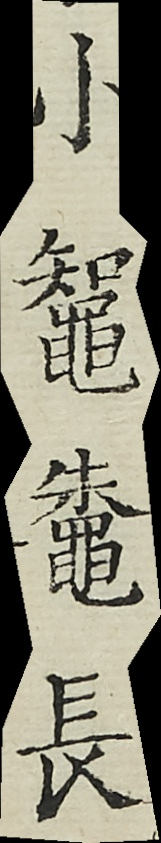小蜘蛛長
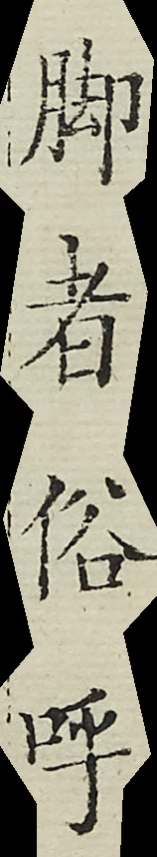腳者俗呼
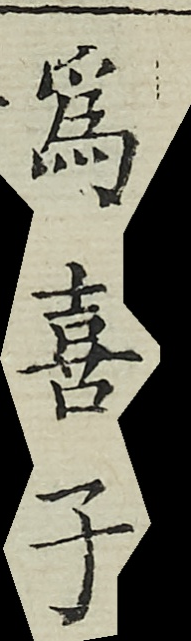為喜子
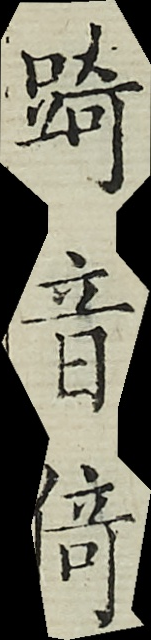踦音倚
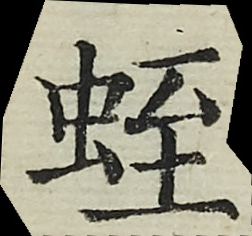蛭
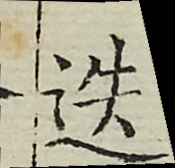迭
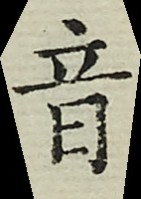音
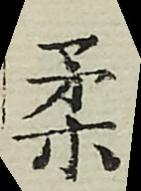柔
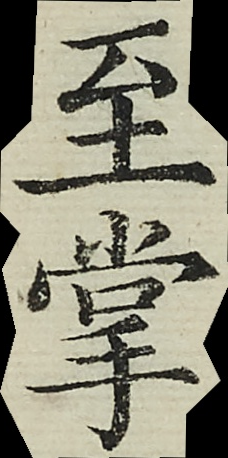至掌
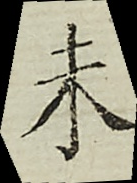未
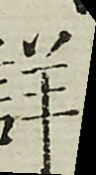詳
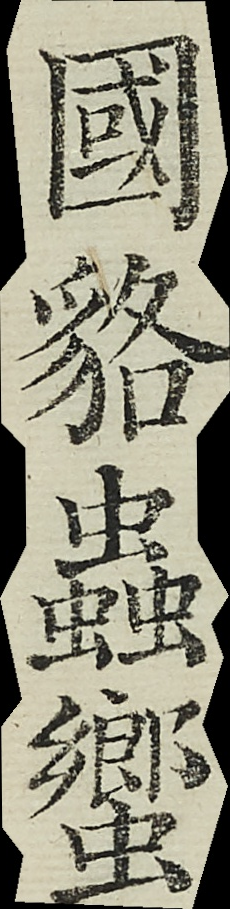國貉蟲蚃
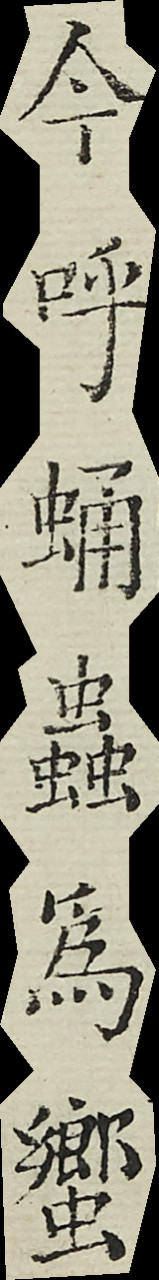今呼蛹蟲為蚃
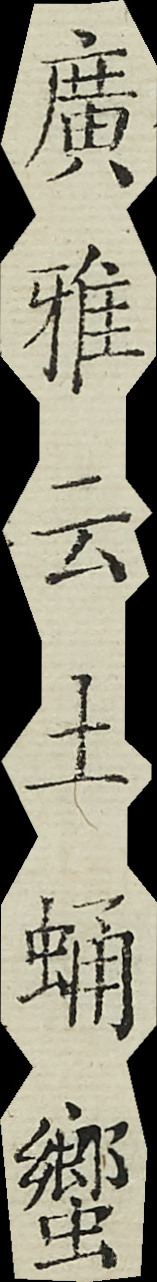廣雅云土蛹蚃
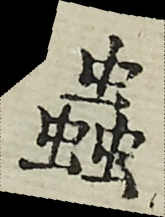蟲
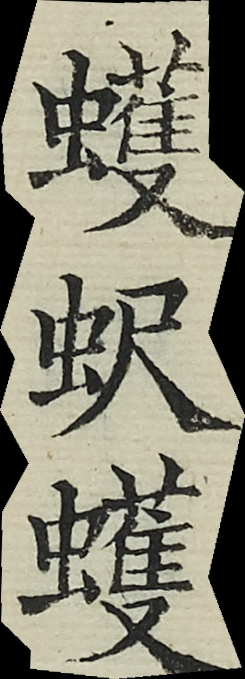蠖蚇蠖
